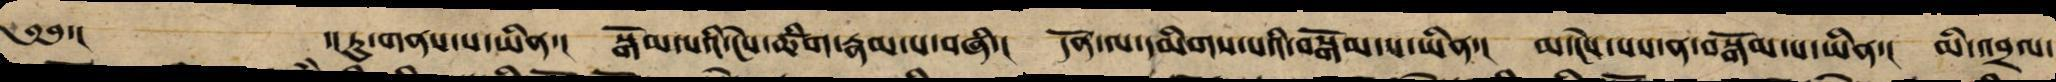༄༅་།   ་།ཏུ་གནས་པ་ཡིན་། སྒོམ་པའི་ངེས་ཚིག་རྣམ་པ་བཞི་། དོན་ལ་དམིགས་པའི་བསྒོམ་པ་ཡིན་། མ་ཡེངས་པས་ན་བསྒོམ་པ་ཡིན་། མི་འབྲལ་
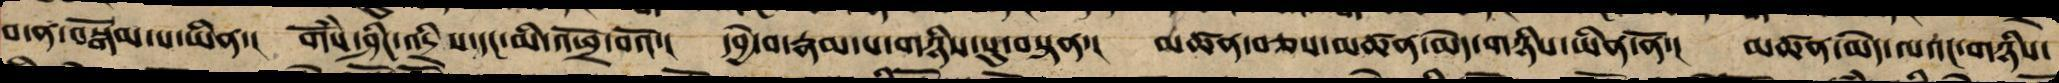བ་ན་བསྒོམ་པ་ཡིན་། གོཾས་ཤིང་འདྲིས་དང་མི་འཕྲོ་བའོ་། དབྱེ་བ་རྣམ་པ་གཉིས་སུ་བསྟན་། མཚན་བཅས་མཚན་མེད་གཉིས་ཡིན་ནོ་། མཚན་མེད་ལའང་གཉིས་
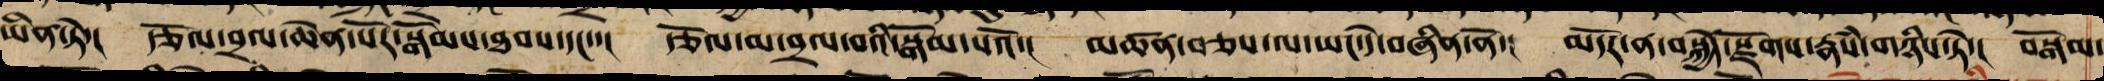ཡིན་ཏེ་། རྩོལ་བྲལ་ཆེན་པོའི་སྒོམ་ཐབས་དང་་། རྩོལ་མ་བྲལ་བའི་སྒོམ་པའོ་། མཚན་བཅས་ལའང་དེ་བཞིན་ནོ་། མདོར་ན་བསྐྱེད་སྫོགས་རྣཾས་གཉིས་ཏེ་། བསྒོམ་
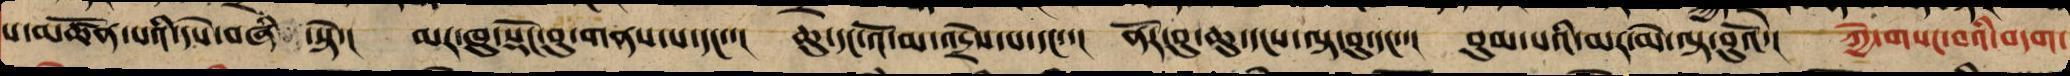པ་མཚོན་པའི་དཔེ་བཞི་སྟེ་། མར་ཁུ་སྡོང་བུ་གནས་པ་དང་་། ཆུ་དང་འོ་མ་འདྲེས་པ་དང་་། ནོར་བུ་ཆུ་དངས་ལྟ་བུ་དང་་། བུམ་པའི་མར་མེ་ལྟ་བུའོ་། ཀྱེ་གསང་བའི་བདག་
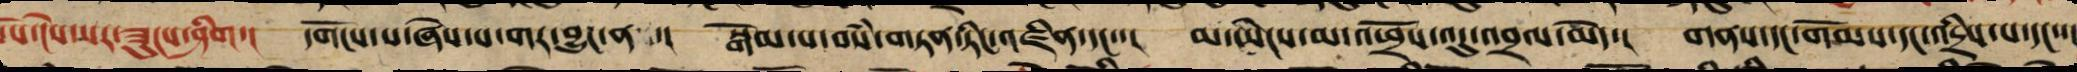པོ་ངེས་པར་ཟུངས་ཞིག། དགོངས་པ་ཞེས་པ་གར་བྱུང་ན་། སྒོམ་པ་བསཾ་གཏན་ཏིང་འཛིན་དང་་། མ་ཡེངས་མ་འཕྲོས་འདུ་འབྲལ་མེད་། གནས་དང་གོམས་དང་འདྲིས་པ་དང་་།
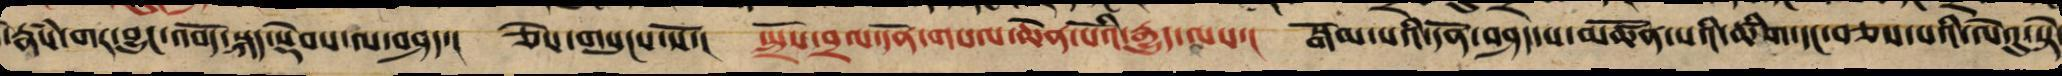དེ་རྣཾས་གང་བྱུང་འབོད་སྐད་སྡེབས་ལ་བཤད་། ཅེས་གསུངས་སོ་། སྤྲོས་བྲལ་དོན་གསལ་ཆེན་པོའི་རྒྱུད་ལས་། སྒོམ་པའི་དོན་བཤད་པ་མཚོན་པའི་ཚིག་དང་བཅས་པའི་ལེའུ་སྟེ་
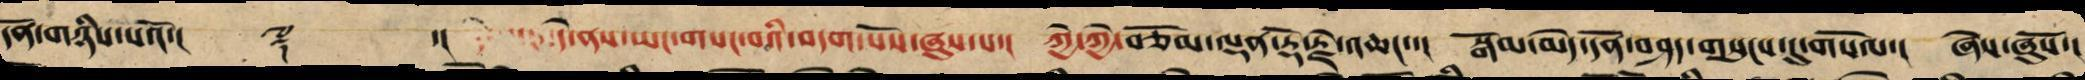དོན་གཉིས་པའོ་།། ༈ ་། དེ་ནས་ཡང་གསང་བའི་བདག་པོས་ཞུས་པ་། ཀྱེ་ཀྱེ་བཅོམ་ལྡན་རྡོ་རྗེ་འཆང་་། སྒོམ་མེད་དོན་བཤད་གསུང་དུ་གསོལ་། ཞེས་ཞུས་སོ་།
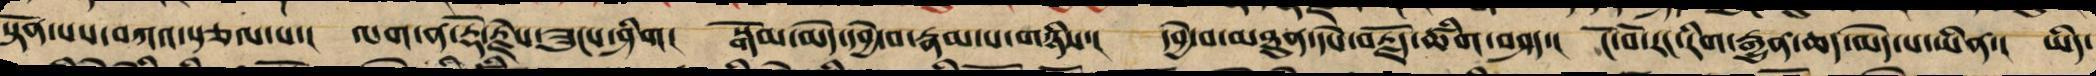སྟོན་པས་བཀའ་སྩལ་པ་། ལག་ན་རྡོ་རྗེས་ངེས་ཟུངས་ཞིག། སྒོམ་མེད་དབྱེ་བ་རྣམ་པ་གཉིས་། དབྱེ་བ་མཐུན་དཔེ་བརྗོད་ཚིག་བཤད་། ངོ་བོ་རང་རིག་རྒྱུན་ཆད་མེད་པ་ཡིན་། ཡིད་
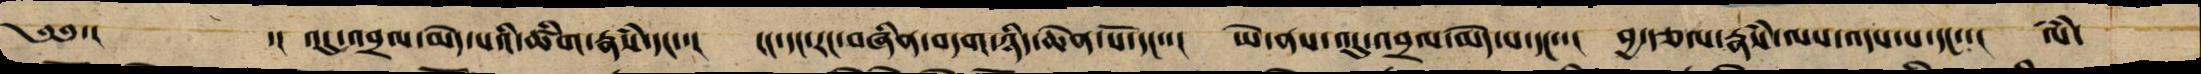༄༅་།  ་། འདུ་འབྲལ་མེད་པའི་ཚིག་རྣཾས་དང་་། ངང་དངས་རང་བཞིན་བདག་ཉིད་ཆེན་པོ་དང་་། ཡེ་ནས་འདུ་འབྲལ་མེད་པ་དང་་། བྱ་རྩོལ་རྣཾས་ལས་འདས་པ་དང་་། ལཾ་
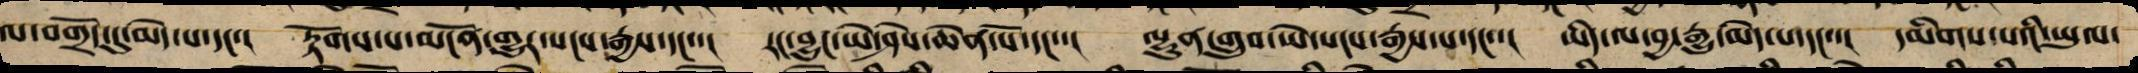ལ་བགྲོད་དུ་མེད་པ་དང་། རྟོགས་པ་མངོན་གྱུར་སངས་རྒྱས་དང་་། རང་བྱུང་ཡེ་ཤེས་ཆེན་པོ་དང་་། ལྷུན་གྲུབ་ཡེ་སངས་རྒྱས་པ་དང་་། ཡིད་ལ་བྱ་རྒྱུ་མེད་པ་དང་་། དམིགས་པའི་ཡུལ་
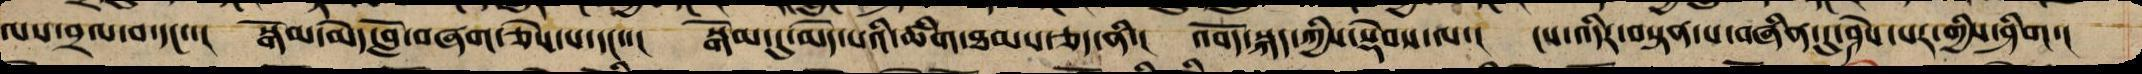ལས་བྲལ་བ་དང་་། སྒོམ་མེད་བློ་བཞག་ཅེས་པ་དང་་། སྒོམ་དུ་མེད་པའི་ཚིག་ཐམས་ཅད་ནི་། འབོད་སྐད་ཀྱིས་བསྡེབས་ལ་། ངས་འདིར་བསྟན་པ་བཞིན་དུ་ཤེས་པར་གྱིས་ཤིག་།
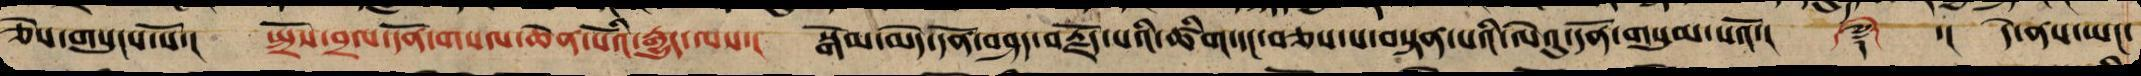ཅེས་གསུངས་སོ་། སྤྲོས་བྲལ་དོན་གསལ་ཆེན་པོའི་རྒྱུད་ལས་། སྒོམ་མེད་དོན་བཤད་བརྗོད་པའི་ཚིག་དང་བཅས་པ་བསྟན་པའི་ལེའུ་སྟེ་དོན་གསུམ་པའོ་།། ༼༈༽ ་།། དེ་ནས་ཡང་
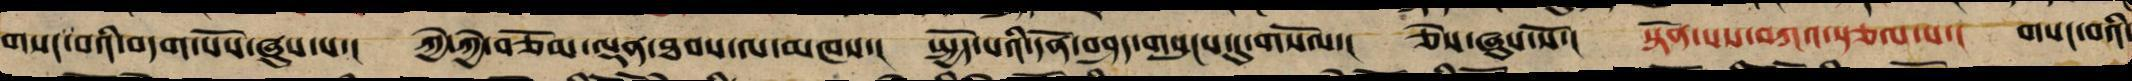གསང་བའི་བདག་པོས་ཞུས་པ་། ཀྱེ་ཀྱེ་བཅོམ་ལྡན་ཐབས་ལ་མཁས་། སྤྱོད་པའི་དོན་བཤད་གསུངས་དུ་གསོལ་། ཅེས་ཞུས་སོ་། སྟོན་པས་བཀའ་སྩལ་པ་། གསང་བའི་
